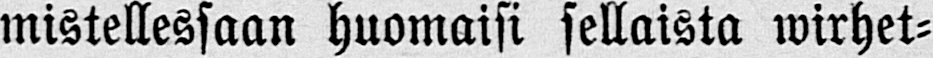mistellessaan huomaisi sellaista wirhet-
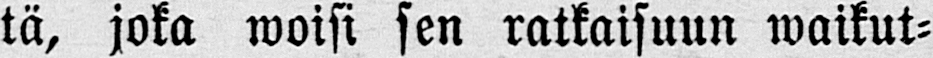tä, joka woisi sen ratkaisuun waikut-
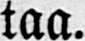taa.
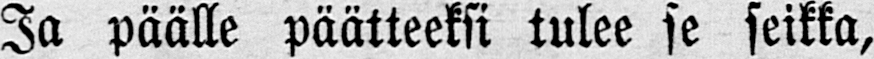Ja päälle päätteeksi tulee se seikka,
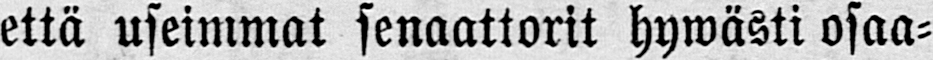että useimmat senaattorit hywästi osaa-
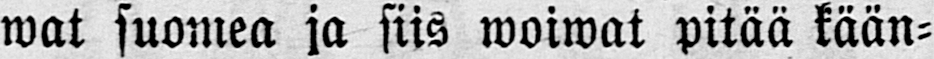wat suomea ja siis woiwat pitää kään-
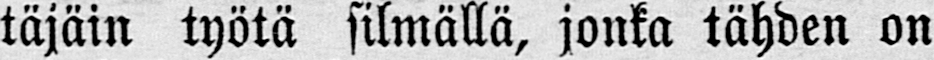täjäin työtä silmällä, jonka lähden on
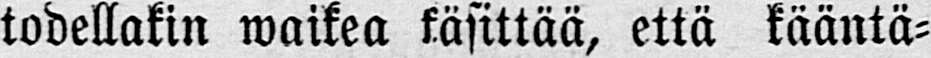todellakin waikea käsittää, että kääntä-
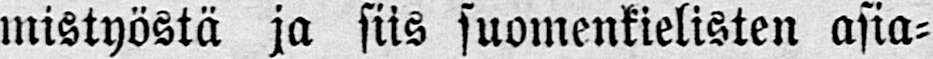mistyöstä ja siis suomenkielisten asia-
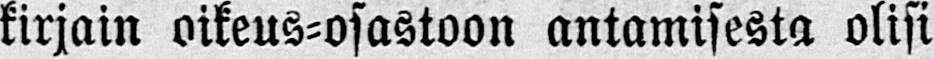kirjain oikeus-osastoon antamisesta olisi
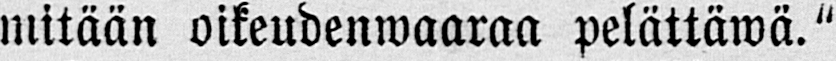mitään oikeudenwaaraa pelättäwä."
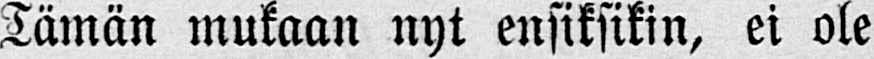Tämän mukaan nyt ensiksikin, ei ole
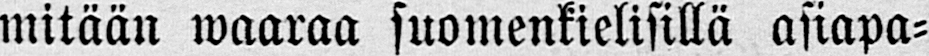mitään waaraa suomenkielisillä asiapa-
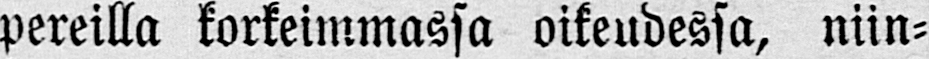pereilla korkeimmassa oikeudessa, niin-
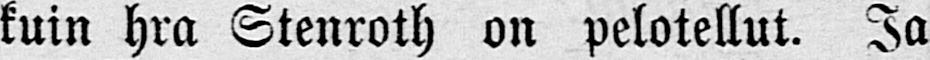kuin hra Stenroth on pelotellut. Ja
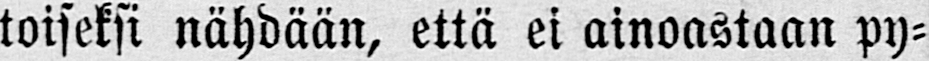toiseksi nähdään, että ei ainoastaan py-
